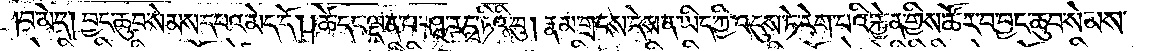བ་མེད། བྱང་ཆུབ་སེམས་དཔའ་མེད་དོ། །ཚེ་དང་ལྡན་པ་ཤཱ་ར་དྭ་ཏིའི་བུ། རྣམ་གྲངས་དེས་ན་ཡིད་ཀྱི་འདུས་ཏེ་རེག་པའི་རྐྱེན་གྱིས་ཚོར་བ་བྱང་ཆུབ་སེམས་
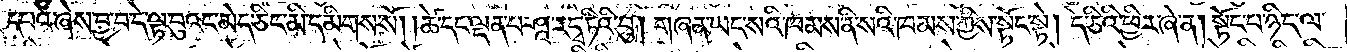དཔའ་ཞེས་བྱ་བ་དེ་ལྟ་བུའང་མེད་ཅིང་མི་དམིགས་སོ། །ཚེ་དང་ལྡན་པ་ཤཱ་ར་དྭ་ཏིའི་བུ། གཞན་ཡང་སའི་ཁམས་ནི་སའི་ཁམས་ཀྱིས་སྟོང་སྟེ། དེ་ཅིའི་ཕྱིར་ཞེ་ན། སྟོང་པ་ཉིད་ལ་
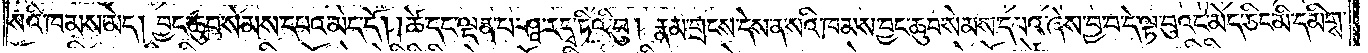སའི་ཁམས་མེད། བྱང་ཆུབ་སེམས་དཔའ་མེད་དོ། །ཚེ་དང་ལྡན་པ་ཤཱ་ར་དྭ་ཏིའི་བུ། རྣམ་གྲངས་དེས་ན་སའི་ཁམས་བྱང་ཆུབ་སེམས་དཔའ་ཞེས་བྱ་བ་དེ་ལྟ་བུའང་མེད་ཅིང་མི་དམིགས་
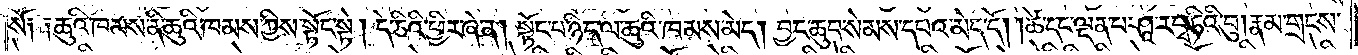སོ། །ཆུའི་ཁམས་ནི་ཆུའི་ཁམས་ཀྱིས་སྟོང་སྟེ། དེ་ཅིའི་ཕྱིར་ཞེ་ན། སྟོང་པ་ཉིད་ལ་ཆུའི་ཁམས་མེད། བྱང་ཆུབ་སེམས་དཔའ་མེད་དོ། །ཚེ་དང་ལྡན་པ་ཤཱ་ར་དྭ་ཏིའི་བུ། རྣམ་གྲངས་
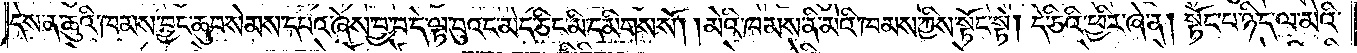དེས་ན་ཆུའི་ཁམས་བྱང་ཆུབ་སེམས་དཔའ་ཞེས་བྱ་བ་དེ་ལྟ་བུའང་མེད་ཅིང་མི་དམིགས་སོ། །མེའི་ཁམས་ནི་མེའི་ཁམས་ཀྱིས་སྟོང་སྟེ། དེ་ཅིའི་ཕྱིར་ཞེ་ན། སྟོང་པ་ཉིད་ལ་མེའི་
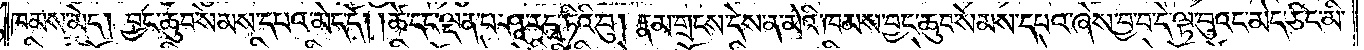ཁམས་མེད། བྱང་ཆུབ་སེམས་དཔའ་མེད་དོ། །ཚེ་དང་ལྡན་པ་ཤཱ་ར་དྭ་ཏིའི་བུ། རྣམ་གྲངས་དེས་ན་མེའི་ཁམས་བྱང་ཆུབ་སེམས་དཔའ་ཞེས་བྱ་བ་དེ་ལྟ་བུའང་མེད་ཅིང་མི་
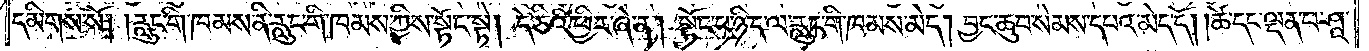དམིགས་སོ། །རླུང་གི་ཁམས་ནི་རླུང་གི་ཁམས་ཀྱིས་སྟོང་སྟེ། དེ་ཅིའི་ཕྱིར་ཞེ་ན། སྟོང་པ་ཉིད་ལ་རླུང་གི་ཁམས་མེད། བྱང་ཆུབ་སེམས་དཔའ་མེད་དོ། །ཚེ་དང་ལྡན་པ་ཤཱ་
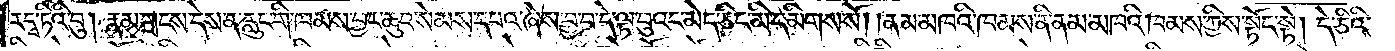ར་དྭ་ཏིའི་བུ། རྣམ་གྲངས་དེས་ན་རླུང་གི་ཁམས་བྱང་ཆུབ་སེམས་དཔའ་ཞེས་བྱ་བ་དེ་ལྟ་བུའང་མེད་ཅིང་མི་དམིགས་སོ། །ནམ་མཁའི་ཁམས་ནི་ནམ་མཁའི་ཁམས་ཀྱིས་སྟོང་སྟེ། དེ་ཅིའི་
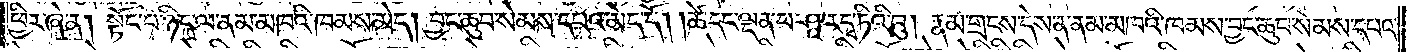ཕྱིར་ཞེ་ན། སྟོང་པ་ཉིད་ལ་ནམ་མཁའི་ཁམས་མེད། བྱང་ཆུབ་སེམས་དཔའ་མེད་དོ། །ཚེ་དང་ལྡན་པ་ཤཱ་ར་དྭ་ཏིའི་བུ། རྣམ་གྲངས་དེས་ན་ནམ་མཁའི་ཁམས་བྱང་ཆུབ་སེམས་དཔའ་
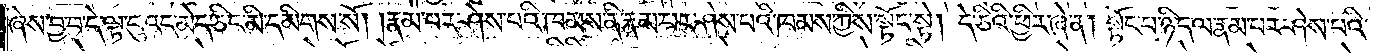ཞེས་བྱ་བ་དེ་ལྟ་བུའང་མེད་ཅིང་མི་དམིགས་སོ། །རྣམ་པར་ཤེས་པའི་ཁམས་ནི་རྣམ་པར་ཤེས་པའི་ཁམས་ཀྱིས་སྟོང་སྟེ། དེ་ཅིའི་ཕྱིར་ཞེ་ན། སྟོང་པ་ཉིད་ལ་རྣམ་པར་ཤེས་པའི་
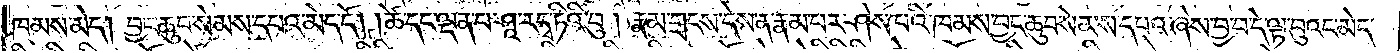ཁམས་མེད། བྱང་ཆུབ་སེམས་དཔའ་མེད་དོ། །ཚེ་དང་ལྡན་པ་ཤཱ་ར་དྭ་ཏིའི་བུ། རྣམ་གྲངས་དེས་ན་རྣམ་པར་ཤེས་པའི་ཁམས་བྱང་ཆུབ་སེམས་དཔའ་ཞེས་བྱ་བ་དེ་ལྟ་བུའང་མེད་
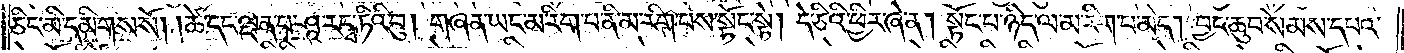ཅིང་མི་དམིགས་སོ། །ཚེ་དང་ལྡན་པ་ཤཱ་ར་དྭ་ཏིའི་བུ། གཞན་ཡང་མ་རིག་པ་ནི་མ་རིག་པས་སྟོང་སྟེ། དེ་ཅིའི་ཕྱིར་ཞེ་ན། སྟོང་པ་ཉིད་ལ་མ་རིག་པ་མེད། བྱང་ཆུབ་སེམས་དཔའ་
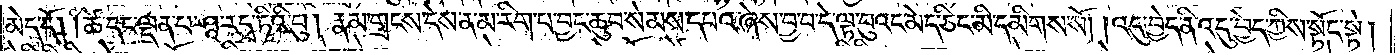མེད་དོ། །ཚེ་དང་ལྡན་པ་ཤཱ་ར་དྭ་ཏིའི་བུ། རྣམ་གྲངས་དེས་ན་མ་རིག་པ་བྱང་ཆུབ་སེམས་དཔའ་ཞེས་བྱ་བ་དེ་ལྟ་བུའང་མེད་ཅིང་མི་དམིགས་སོ། །འདུ་བྱེད་ནི་འདུ་བྱེད་ཀྱིས་སྟོང་སྟེ།
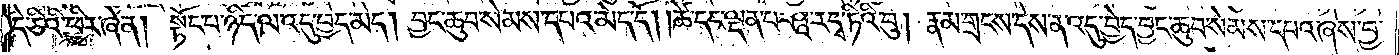དེ་ཅིའི་ཕྱིར་ཞེ་ན། སྟོང་པ་ཉིད་ལ་འདུ་བྱེད་མེད། བྱང་ཆུབ་སེམས་དཔའ་མེད་དོ། །ཚེ་དང་ལྡན་པ་ཤཱ་ར་དྭ་ཏིའི་བུ། རྣམ་གྲངས་དེས་ན་འདུ་བྱེད་བྱང་ཆུབ་སེམས་དཔའ་ཞེས་བྱ་
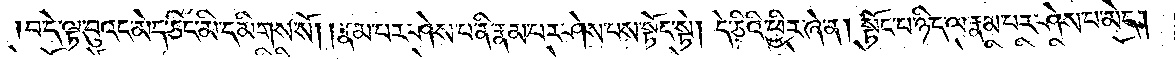བ་དེ་ལྟ་བུའང་མེད་ཅིང་མི་དམིགས་སོ། །རྣམ་པར་ཤེས་པ་ནི་རྣམ་པར་ཤེས་པས་སྟོང་སྟེ། དེ་ཅིའི་ཕྱིར་ཞེ་ན། སྟོང་པ་ཉིད་ལ་རྣམ་པར་ཤེས་པ་མེད།
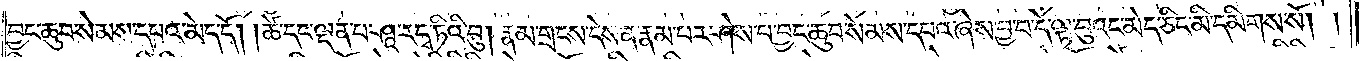བྱང་ཆུབ་སེམས་དཔའ་མེད་དོ། །ཚེ་དང་ལྡན་པ་ཤཱ་ར་དྭ་ཏིའི་བུ། རྣམ་གྲངས་དེས་ན་རྣམ་པར་ཤེས་པ་བྱང་ཆུབ་སེམས་དཔའ་ཞེས་བྱ་བ་དེ་ལྟ་བུའང་མེད་ཅིང་མི་དམིགས་སོ། །
